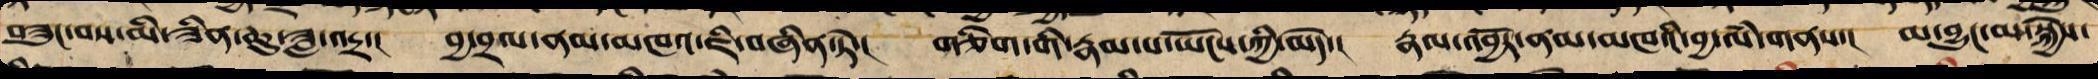བཟུང་བས་མི་ཟིན་ཆུ་ཟླ་འདྲ་། བྱ་བྲལ་ནམ་མཁའ་ཇི་བཞིན་ཏེ་། གཅིག་གི་རྣམ་པ་ཡོངས་ཀྱི་མེད་། རྣལ་འབྱོར་ནམ་མཁའི་བྱ་ལཾ་གནས་། མ་བྱུང་མ་སྐྱེས་
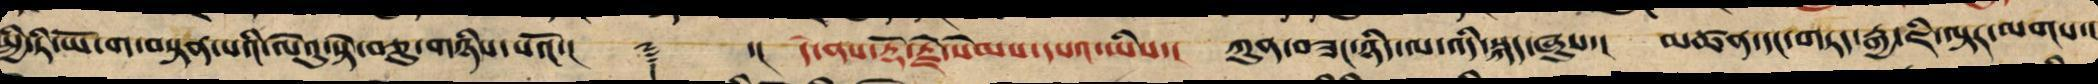སྤྱི་ཏི་ཡོ་ག་བསྟན་པའི་ལེའུ་སྟེ་བཅུ་གཉིས་པའོ་།། ༈ ་། དེ་ནས་རྡོ་རྗེ་སེམས་དཔའ་ཡིས་། ཀུན་བཟང་ཉིད་ལ་འདི་སྐད་ཞུས་། མཚན་དང་གཏད་རྒྱ་ཇི་ལྟར་ལགས་།
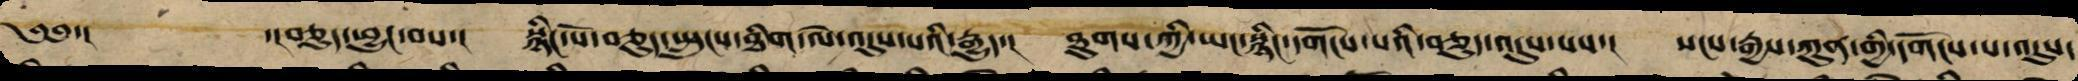༄༅་། ་།བཅུད་ཕྱུང་བས་། སྙིང་པོ་བཅུད་སྤུངས་ཐིག་ལེ་འདུས་པའི་རྒྱུད་། ཐུགས་ཀྱི་ཡང་སྙིང་དགོངས་པའི་བཅུད་འདུས་པས་། སངས་རྒྱས་ཀུན་གྱི་དགོངས་པ་འདུས་
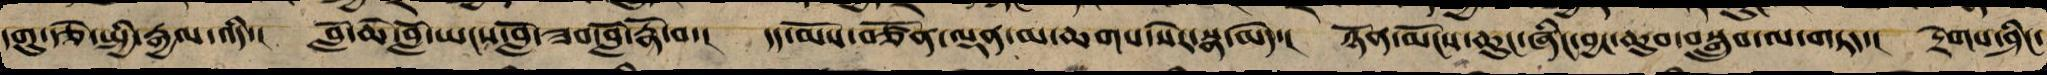དགུ་རྩེ་སྤྱི་རྒྱལ་འདི་། བློ་ཆེ་བློ་ཡངས་བློ་ཟབ་བློ་རྣོ་བ་། དད་མོས་བཙོན་ལྡན་མ་ཆགས་སེར་སྣ་མེད་། ཉོན་མོངས་ཆུང་ཞིང་བྱང་ཆུབ་བསྒྲུབ་ལ་གཏད་། དྲེགས་ཤིང་
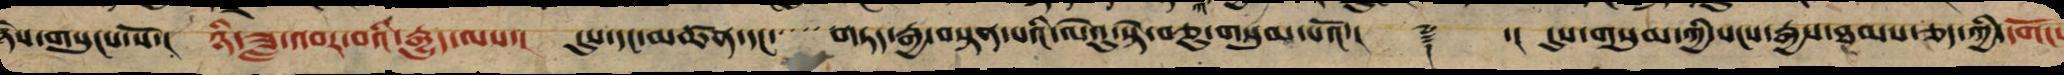ས་གསུངས་སོ་། ཉི་ཟླ་འབར་བའི་རྒྱུད་ལས་། དུས་དང་མཚན་དང་ གཏད་རྒྱ་བསྟན་པའི་ལེའུ་སྟེ་བཅུ་གསུམ་པའོ་།། ༈ ་། དུས་གསུམ་ཀྱི་སངས་རྒྱས་ཐམས་ཅད་ཀྱི་དགོང
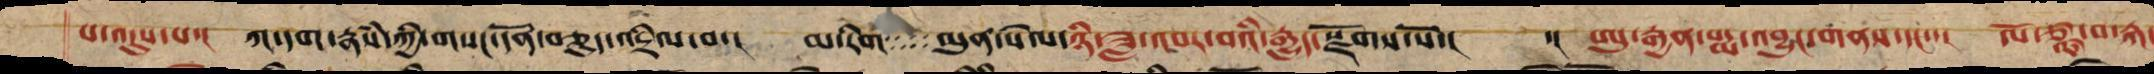པ་འདུས་པ་། ཀ་དག་རྣཾས་ཀྱི་གསང་དོན་བཅུད་འདྲིལ་བ་། མ་རིག་ མུན་སེལ་ཉི་ཟླ་འབར་བའི་རྒྱུད་རྫོགས་སོ་།། ་། ཨུ་རྒྱན་པདྨ་འབྱུང་གནས་དང་་། ལོ་ཙྪ་བ་རྐ་
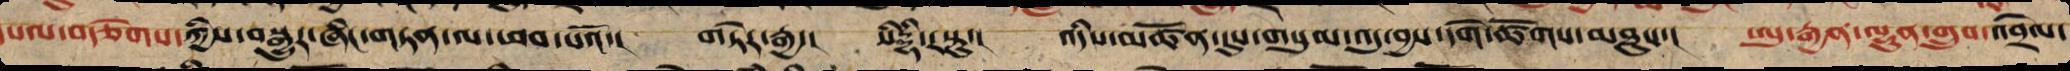པལ་བརྩེགས་ཀྱིས་བསྒྱུར་ཞིང་གཏན་ལ་ཕབ་པའོ་། གཏེར་རྒྱ་། སིདྡྷི་རསྟུ་། འདིས་མཚོན་དུས་གསུམ་འདུ་བྱས་དགེ་ཚོགས་མཐུས་། ཨུ་རྒྱན་ལྷུན་གྲུབ་འབྲེལ་
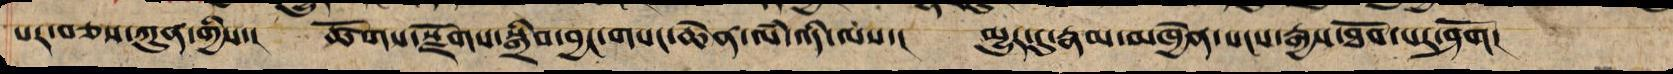པར་བཅས་ཀུན་གྱིས་། ཚོགས་སྫོགས་སྒྲིབ་བྱང་གསང་ཆེན་ལཾ་འདི་ལས་། མྱུར་དུ་རྣམ་མཁྱེན་སངས་རྒྱས་ཐོབ་པར་ཤོག།
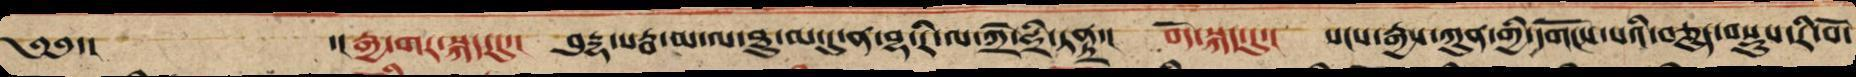༄༅་། ་།རྒྱ་གར་སྐད་དུ་། བུདྡྷ་སརྦ་མ་ལ་ཐུ་མ་དུ་ན་བྷ་རི་ལ་ཀྲོ་ཧྲི་ཏནྟྲ་། བོད་སྐད་དུ་། སངས་རྒྱས་ཀུན་གྱི་དགོངས་པའི་བཅུད་བསྡུས་རི་བོ་
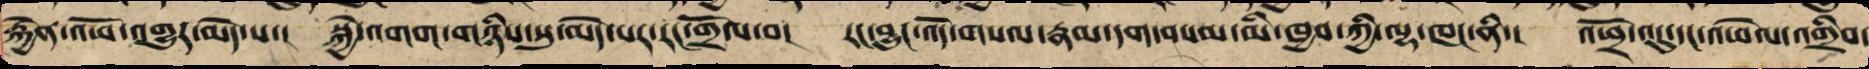རྐྱེན་འཕོ་འགྱུར་མེད་པ་། སྐྱེ་འགག་གཉིས་སུ་མེད་པར་རང་གྲོལ་བ། རང་བྱུང་འོད་གསལ་རྣམ་དག་བསམ་མི་ཁྱབ་ཀྱི་ལྷ་ཁང་ནི་། འཕྲོ་འདུ་དང་འཕེལ་འགྲིབ་
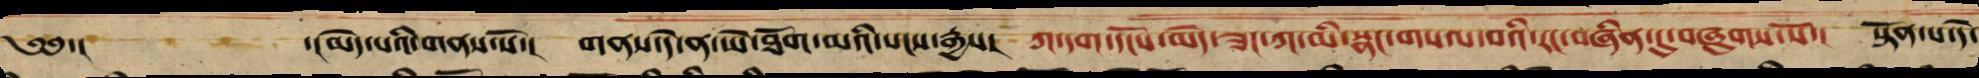༄༅་། ་།མེད་པའི་གནས་སོ་། གནས་དེ་ན་ཡེ་ཐོག་མའི་སངས་རྒྱས། ཀ་དག་དངོས་མེད་ཟང་ཀ་མི་སྣང་གསལ་བའི་རང་བཞིན་དུ་བཞུགས་སོ་། སྟོན་པ་དེ་
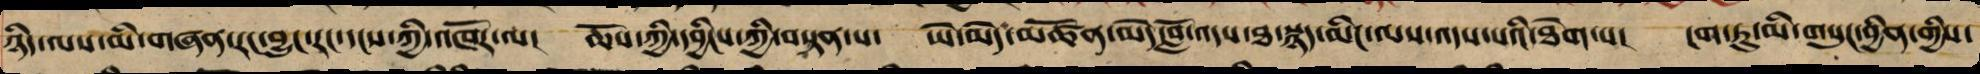ཉིད་ལས་མི་གཞན་རང་བྱུང་རང་དངས་ཀྱི་འཁོར་ལ། ཆོས་ཀྱི་དབྱིངས་ཀྱི་བསྟན་པ་ ཡེ་མེད་མཚོན་མེད་བློ་འདས་ཐ་སྙད་མིང་ལས་འདས་པའི་ཐེག་པ། ངག་ཏུ་མི་གསུང་བྱིན་གྱིས་
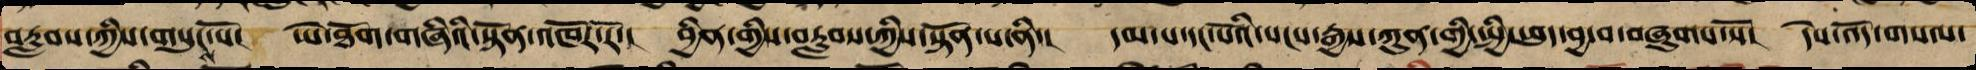རླབས་ཀྱིས་གསུངས་སོ། ཡེ་ཐོག་གཞིའི་སྟོན་འཁོར་རོ། །བྱིན་གྱིས་རླབས་ཀྱི་སྟོན་པ་ནི། དམ་པ་དང་པོའི་སངས་རྒྱས་ཀུན་གྱི་སྤྱི་ཕུད་བྱ་བ་བཞུགས་སོ། །དེས་འོད་གསལ་
